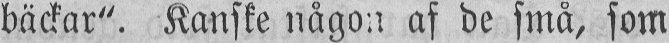bäckar". Kanske någon af de små, som
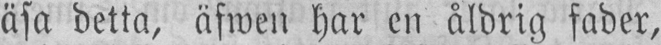äsa detta, äfwen har en åldrig fader,
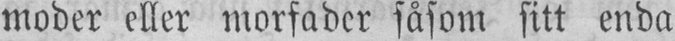moder eller morfader såsom sitt enda
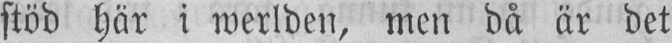stöd här i werlden, men då är det
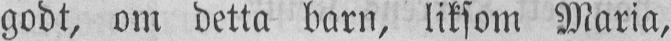godt, om detta barn, liksom Maria,
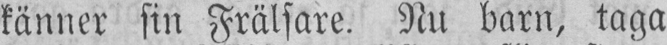känner sin Frälsare. Nu barn, taga
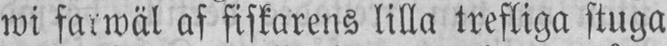wi farwäl af fiskarens lilla trefliga stuga
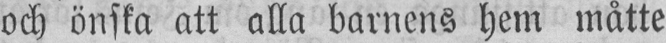och önska att alla barnens hem måtte
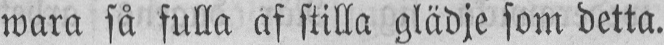wara så fulla af stilla glädje som detta.
